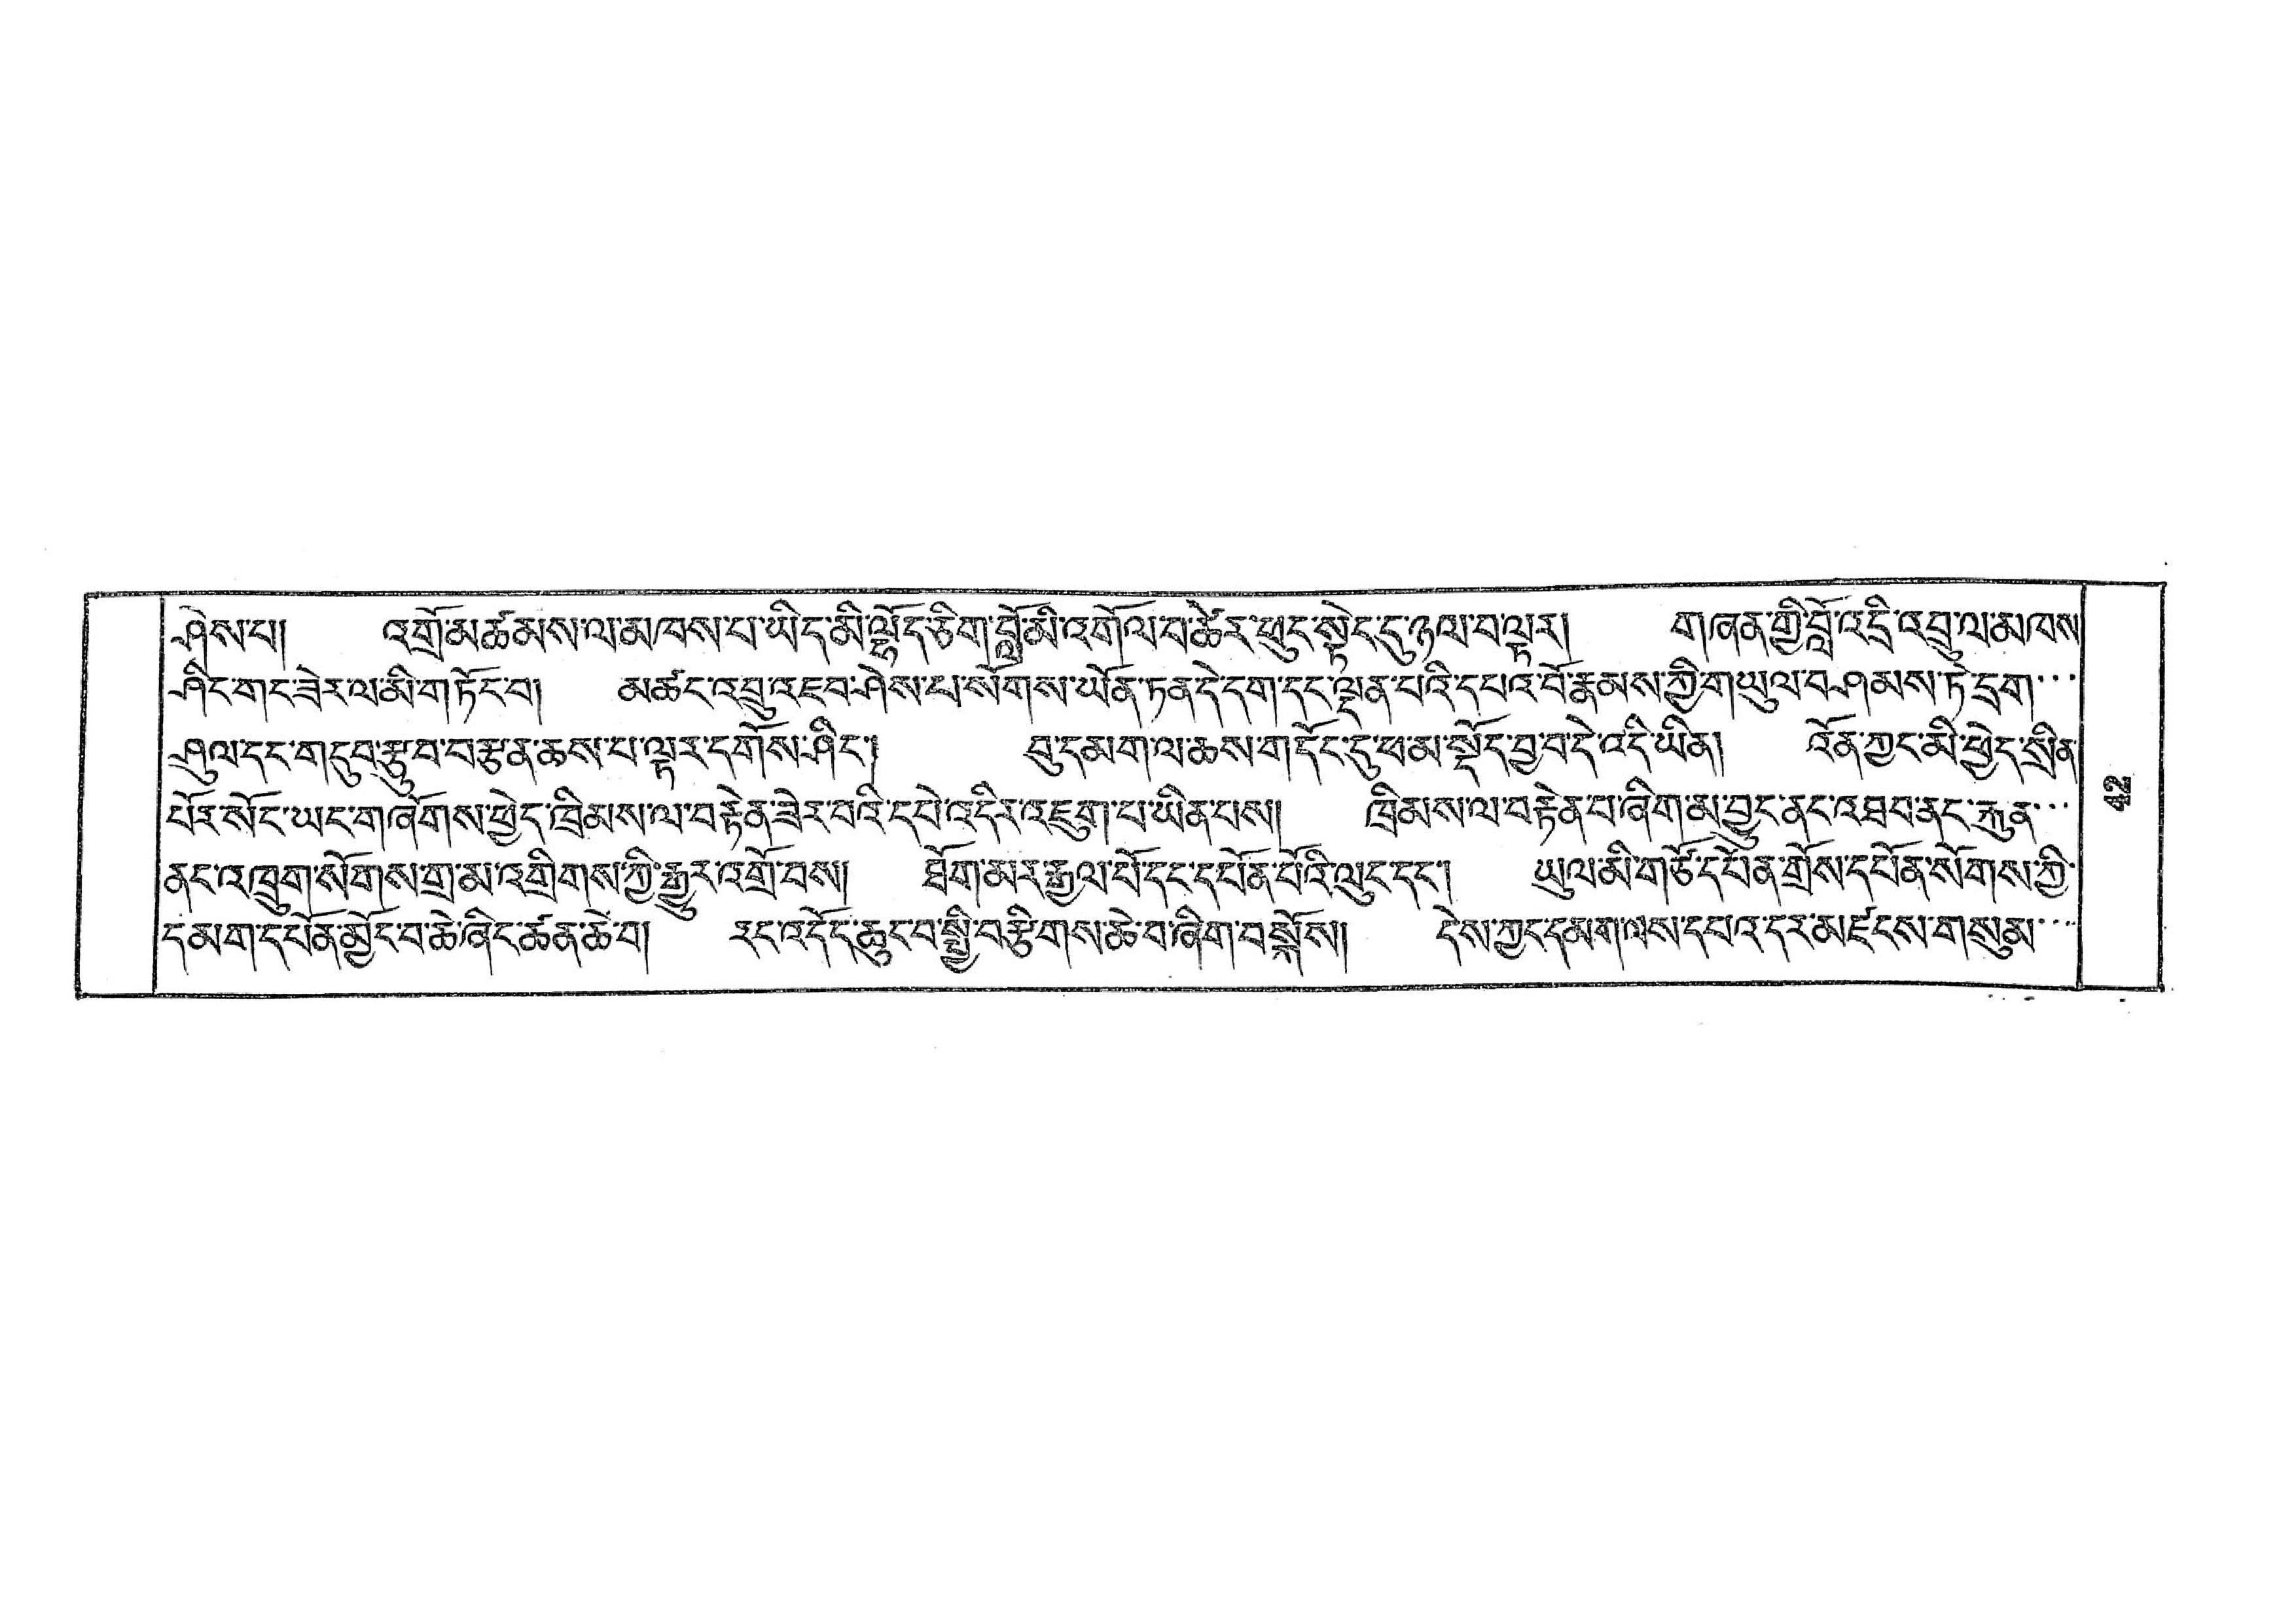ཤེས་པ། འགྲོ་མཚམས་ལ་མཁས་པ་ཡིད་མི་ལྷོད་ཅིག་བློ་མི་འགོལ་བཚེར་ཕུད་སྟེང་དུ་ཉལ་བ་ལྟར། གཞན་གྱི་བློ་འདྲི་འབྲུ་ལ་མཁས་
ཤིང་གང་ཟེར་ལ་མི་གཏོར་བ། མཚང་འབྲུ་འཇབ་ཤེས་པ་སོགས་ཡོན་ཏན་དེ་དག་དང་ལྡན་པའི་དཔའ་བོ་རྣམས་ཀྱི་གཡུལ་བཤམས་ཏེ་དྲག་་་
ཤུལ་དང་གདུབ་རྩུབ་བརྩན་ཆས་པ་ལྟར་དགོས་ཤིང་། བུ་དམག་ལ་ཆས་གདོང་དུ་ཕ་མ་སྡོད་བྱ་བ་དེ་འདི་ཡིན། འོན་ཀྱང་མི་ཕྱེད་སྲིན་
པོར་སོང་ཡང་གཞོགས་ཕྱེད་ཁྲིམས་ལ་བརྟེན་ཟེར་བའི་དཔེ་འདིར་འཇུག་པ་ཡིན་པས། ཁྲིམས་ལ་བརྟེན་པ་ཞིག་མ་བྱུང་ནང་འཐབ་ནང་རྐུན་་་
ནང་འཁྲུག་སོགས་གྲ་མ་འགྲིགས་ཀྱི་རྒྱུར་འགྲོ་བས། ཐོག་མར་རྒྱལ་པོ་དང་དཔོན་པོའི་ལུང་དང་། ཡུལ་མི་གཙོ་དཔོན་གྲོས་དཔོན་སོགས་ཀྱི་
དམག་དཔོན་མྱོང་བ་ཆེ་ཞིང་ཚན་ཆེ་བ། རང་འདོད་ཆུང་བ་སྤྱི་བརྩིགས་ཆེ་བ་ཞིག་བསྐོས། དེས་ཀྱང་དམག་ལས་དཔའ་དར་མཛངས་གསུམ་་་
